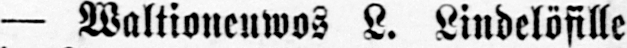— Waltioneuwos L. Lindelöfille
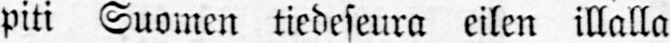piti Suomen tiedeseura eilen illalla
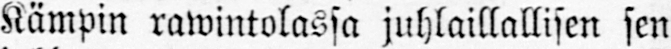Kämpin rawintolassa juhlaillallisen sen
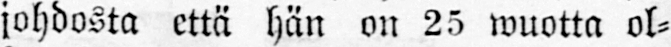johdosta että hän on 25 wuotta ol-
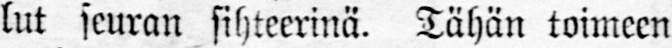lut seuran sihteerinä. Tähän toimeen
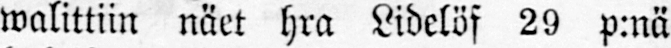walittiin näet hra Lidelöf 29 p:nä
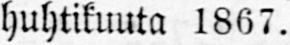huhtikuuta 1867.
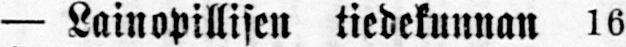— Lainopillisen tiedekunnan 16
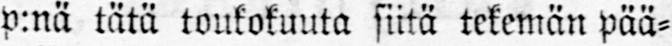p:nä tätä toukokuuta siitä tekemän pää-
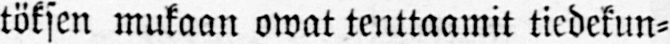töksen mukaan owat tenttaamit tiedekun-
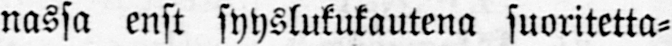nassa enst syyslukukautena suoritetta-
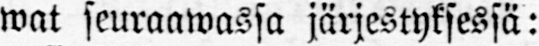wat seuraawassa järjestyksessä:
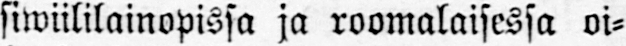siwiililainopissa ja roomalaisessa oi-
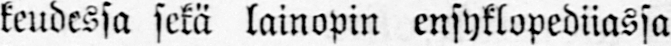keudessa sekä lainopin ensyklopediiassa
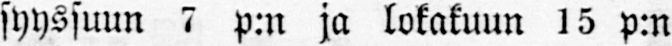syyssuun 7 p:n ja lokakuun 15 p:n
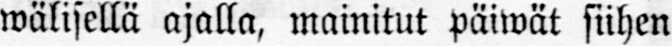wälisellä ajalla, mainitut päiwät siihen
